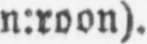n:roon).
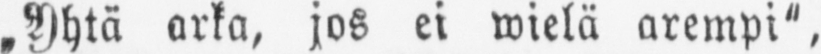Yhtä arka, jos ei wielä arempi",
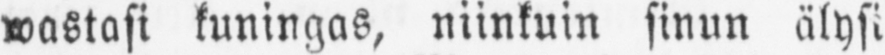wastasi kuningas, niinkuin sinun älysi
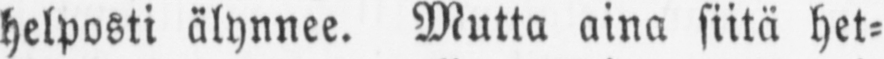helposti älynnee. Mutta aina siitä het-
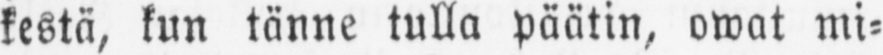kestä, kun tänne tulla päätin, owat mi-
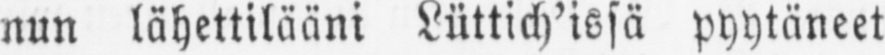nun lähettilääni Lüttich’issä pyytäneet
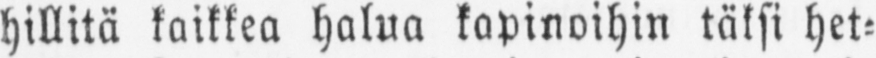hillitä kaikkea halua kapinoihin täksi het-
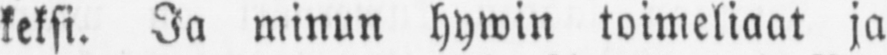keksi. Ja minun hywin toimeliaat ja
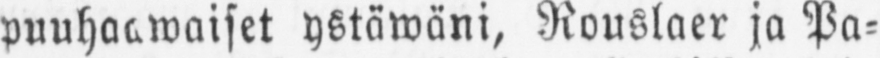puuhaawaiset ystäwäni, Rouslaer ja Pa-
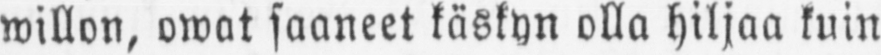willon, owat saaneet käskyn olla hiljaa kuin
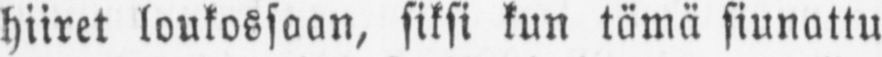hiiret loukossaan, siksi kun tämä siunattu
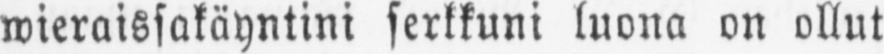wieraissakäyntini serkkuni luona on ollut
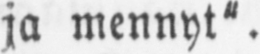ja mennyt".
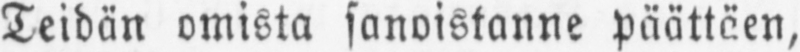„Teidän omista sanoistanne päättäen,
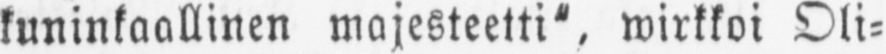kuninkaallinen majesteetti", wirkkoi Oli-
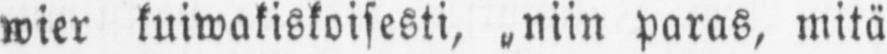wier kuiwakiskoisesti, „niin paras, mitä
